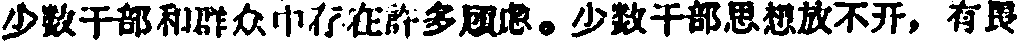少数干部和群众中存在許多顾虑。少数干部思想放不开，有畏
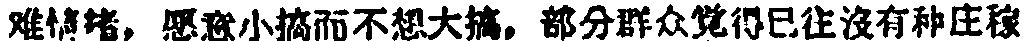难情绪，愿意小搞而不想大搞，部分群众覚得已往沒有种庄稼
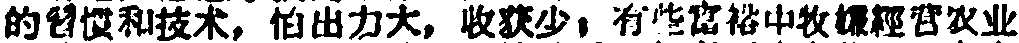的習惯和技术。但出力大，收获少，有些富裕中牧 經营农业
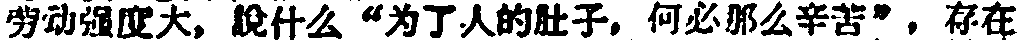劳动強度大，說什么“为了人的肚子，何必那么辛苦”，存在
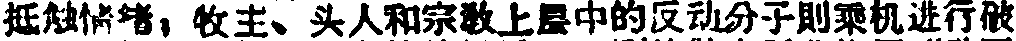抵触情绪，牧主、头人和宗敎上层中的反动分子則乘机进行破
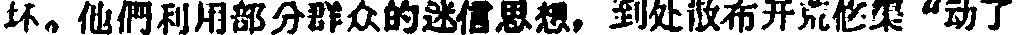坏。他們利用部分群众的迷信思想，到处散布开荒修渠“动了
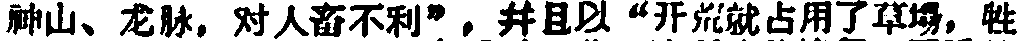神山、龙脉，对人畜不利”，并且以“开荒就占用了草場，牲
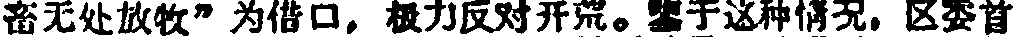畜无处放牧”为借口，极力反对开荒。鑒于这种信況，区委首
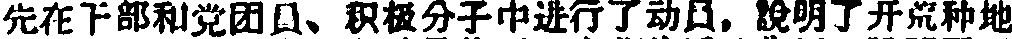先在下部和党团員、积极分子中进行了动員，說明了开荒种地
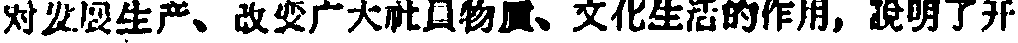对發展生产、改变广大社員物质、文化生活的作用，說明了开
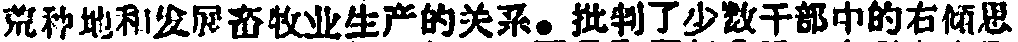荒种地和发展畜牧业生产的关系。批判了少数干部中的右倾思
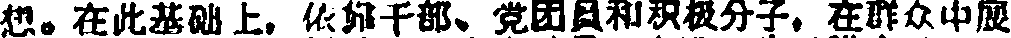想。在此基础上，依靠干部、党团員和积极分子，在群众中展
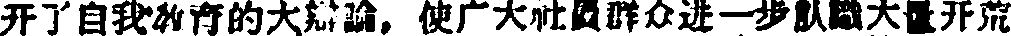开了自我教育的大辯論，使广大社員群众进一步认識大量开荒
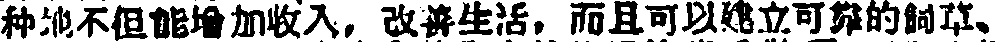种地不但能增加收入，改善生活，而且可以建立可靠的飼草、
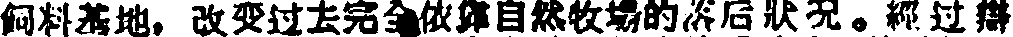飼料基地，改变过去完全依靠自然牧場的落后狀況。經过辯
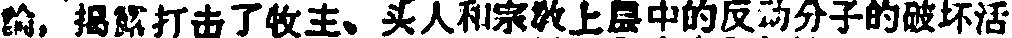論，揭露打击了牧主、头人和宗敎上层中的反动分子的破坏活
